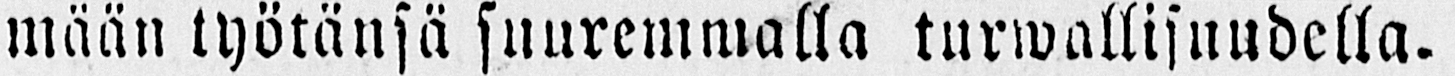Jos tahdot heikkopäiseksi hupsuksi tulla,
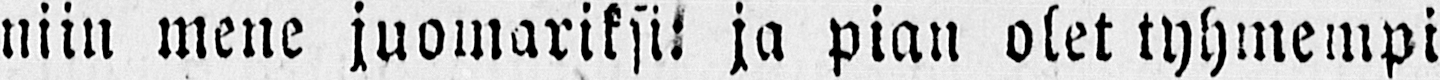niin mene juomariksi: ja pian olet tyhmempi
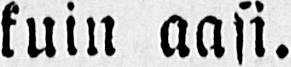kuin aasi.
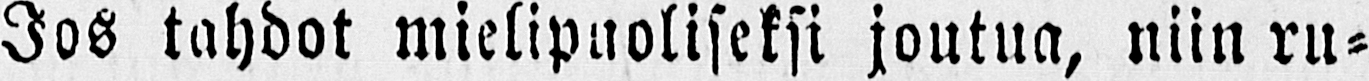Jos tahdot mielipuoliseksi joutua, niin ru-
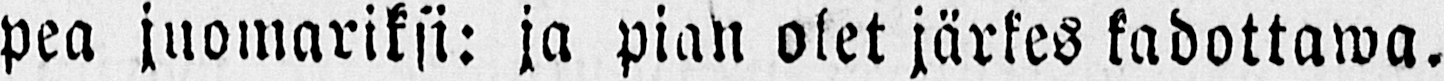pea juomariksi: ja pian olet järkes kadottawa.
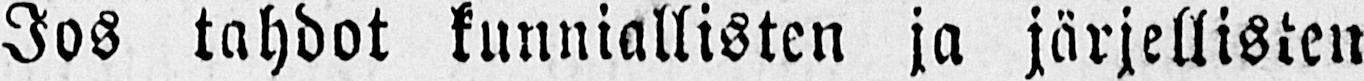Jos tahdot kunniallisten ja järjellisten
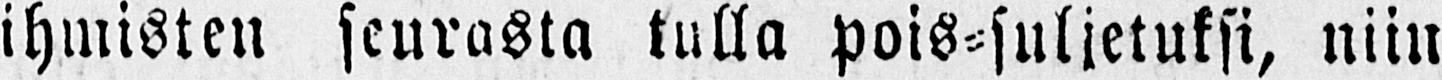ihmisten seurasta tulla pois-suljetuksi, niin
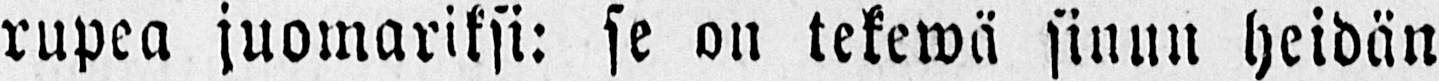rupea juomariksi: se on tekewä sinun heidän
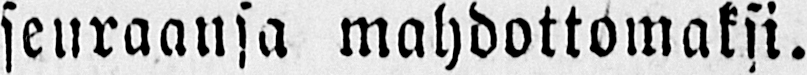seuraansa mahdottomaksi.
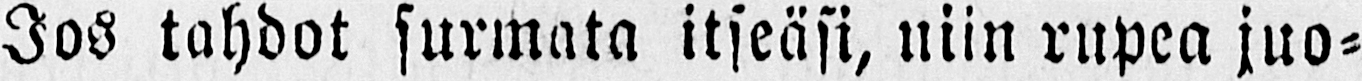Jos tahdot surmata itseäsi, niin rupea juo-
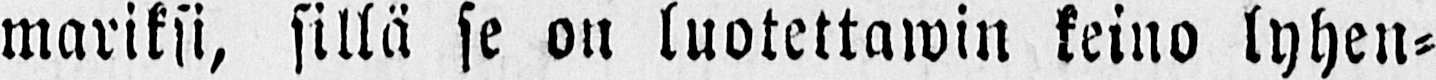mariksi, sillä se on luotettawin keino lyhen-
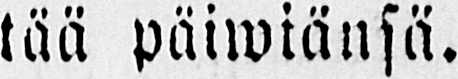tää päiwiänsä.
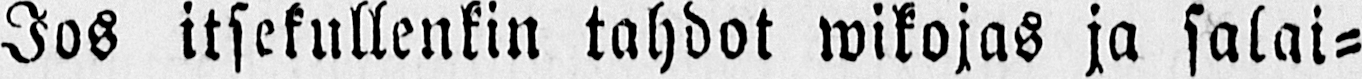Jos itsekullenkin tahdot wikojas ja salai-
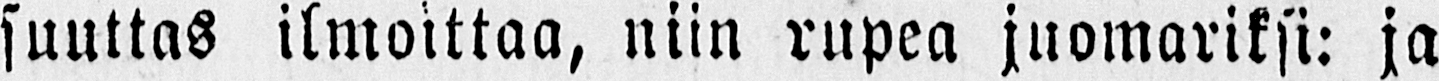suuttas ilmoittaa, niin rupea juomariksi: ja
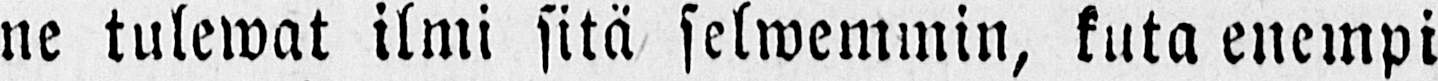ne tulewat ilmi sitä selwemmin, kuta enempi
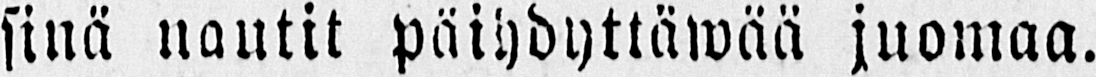sinä nautit päihdyttäwää juomaa.
